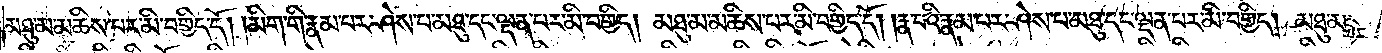མཐུ་མ་མཆིས་པར་མི་བགྱིད་དོ། །མིག་གི་རྣམ་པར་ཤེས་པ་མཐུ་དང་ལྡན་པར་མི་བགྱིད། མཐུ་མ་མཆིས་པར་མི་བགྱིད་དོ། །རྣ་བའི་རྣམ་པར་ཤེས་པ་མཐུ་དང་ལྡན་པར་མི་བགྱིད། མཐུ་མ་
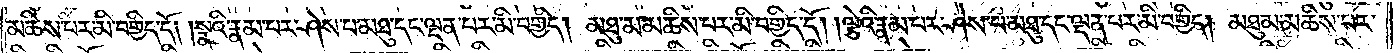མཆིས་པར་མི་བགྱིད་དོ། །སྣའི་རྣམ་པར་ཤེས་པ་མཐུ་དང་ལྡན་པར་མི་བགྱིད། མཐུ་མ་མཆིས་པར་མི་བགྱིད་དོ། །ལྕེའི་རྣམ་པར་ཤེས་པ་མཐུ་དང་ལྡན་པར་མི་བགྱིད། མཐུ་མ་མཆིས་པར་
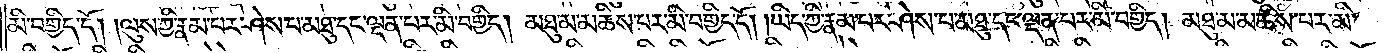མི་བགྱིད་དོ། །ལུས་ཀྱི་རྣམ་པར་ཤེས་པ་མཐུ་དང་ལྡན་པར་མི་བགྱིད། མཐུ་མ་མཆིས་པར་མི་བགྱིད་དོ། །ཡིད་ཀྱི་རྣམ་པར་ཤེས་པ་མཐུ་དང་ལྡན་པར་མི་བགྱིད། མཐུ་མ་མཆིས་པར་མི་
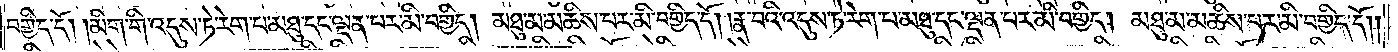བགྱིད་དོ། །མིག་གི་འདུས་ཏེ་རེག་པ་མཐུ་དང་ལྡན་པར་མི་བགྱིད། མཐུ་མ་མཆིས་པར་མི་བགྱིད་དོ། །རྣ་བའི་འདུས་ཏེ་རེག་པ་མཐུ་དང་ལྡན་པར་མི་བགྱིད། མཐུ་མ་མཆིས་པར་མི་བགྱིད་དོ། །
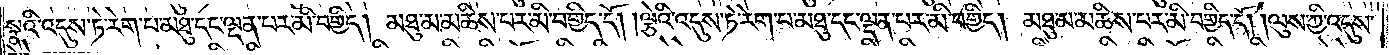སྣའི་འདུས་ཏེ་རེག་པ་མཐུ་དང་ལྡན་པར་མི་བགྱིད། མཐུ་མ་མཆིས་པར་མི་བགྱིད་དོ། །ལྕེའི་འདུས་ཏེ་རེག་པ་མཐུ་དང་ལྡན་པར་མི་བགྱིད། མཐུ་མ་མཆིས་པར་མི་བགྱིད་དོ། །ལུས་ཀྱི་འདུས་
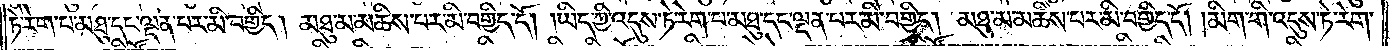ཏེ་རེག་པ་མཐུ་དང་ལྡན་པར་མི་བགྱིད། མཐུ་མ་མཆིས་པར་མི་བགྱིད་དོ། །ཡིད་ཀྱི་འདུས་ཏེ་རེག་པ་མཐུ་དང་ལྡན་པར་མི་བགྱིད། མཐུ་མ་མཆིས་པར་མི་བགྱིད་དོ། །མིག་གི་འདུས་ཏེ་རེག་
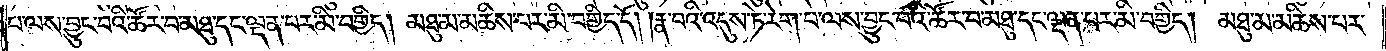པ་ལས་བྱུང་བའི་ཚོར་བ་མཐུ་དང་ལྡན་པར་མི་བགྱིད། མཐུ་མ་མཆིས་པར་མི་བགྱིད་དོ། །རྣ་བའི་འདུས་ཏེ་རེག་པ་ལས་བྱུང་བའི་ཚོར་བ་མཐུ་དང་ལྡན་པར་མི་བགྱིད། མཐུ་མ་མཆིས་པར་
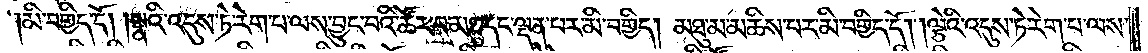མི་བགྱིད་དོ། །སྣའི་འདུས་ཏེ་རེག་པ་ལས་བྱུང་བའི་ཚོར་བ་མཐུ་དང་ལྡན་པར་མི་བགྱིད། མཐུ་མ་མཆིས་པར་མི་བགྱིད་དོ། །ལྕེའི་འདུས་ཏེ་རེག་པ་ལས་
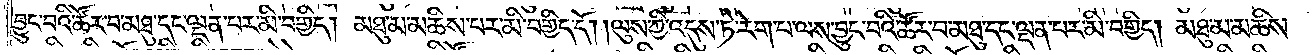བྱུང་བའི་ཚོར་བ་མཐུ་དང་ལྡན་པར་མི་བགྱིད། མཐུ་མ་མཆིས་པར་མི་བགྱིད་དོ། །ལུས་ཀྱི་འདུས་ཏེ་རེག་པ་ལས་བྱུང་བའི་ཚོར་བ་མཐུ་དང་ལྡན་པར་མི་བགྱིད། མཐུ་མ་མཆིས་
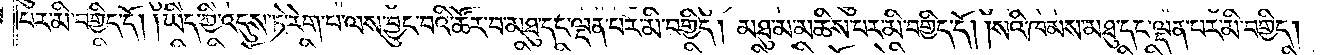པར་མི་བགྱིད་དོ། །ཡིད་ཀྱི་འདུས་ཏེ་རེག་པ་ལས་བྱུང་བའི་ཚོར་བ་མཐུ་དང་ལྡན་པར་མི་བགྱིད། མཐུ་མ་མཆིས་པར་མི་བགྱིད་དོ། །སའི་ཁམས་མཐུ་དང་ལྡན་པར་མི་བགྱིད།
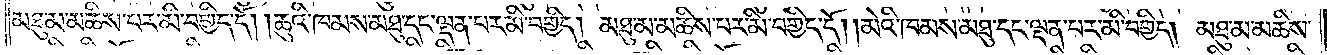མཐུ་མ་མཆིས་པར་མི་བགྱིད་དོ། །ཆུའི་ཁམས་མཐུ་དང་ལྡན་པར་མི་བགྱིད། མཐུ་མ་མཆིས་པར་མི་བགྱིད་དོ། །མེའི་ཁམས་མཐུ་དང་ལྡན་པར་མི་བགྱིད། མཐུ་མ་མཆིས་
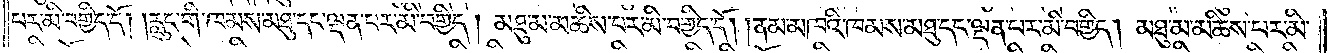པར་མི་བགྱིད་དོ། །རླུང་གི་ཁམས་མཐུ་དང་ལྡན་པར་མི་བགྱིད། མཐུ་མ་མཆིས་པར་མི་བགྱིད་དོ། །ནམ་མཁའི་ཁམས་མཐུ་དང་ལྡན་པར་མི་བགྱིད། མཐུ་མ་མཆིས་པར་མི་
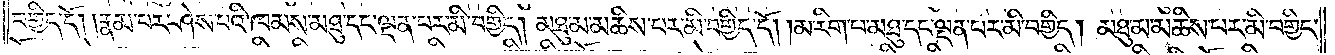བགྱིད་དོ། །རྣམ་པར་ཤེས་པའི་ཁམས་མཐུ་དང་ལྡན་པར་མི་བགྱིད། མཐུ་མ་མཆིས་པར་མི་བགྱིད་དོ། །མ་རིག་པ་མཐུ་དང་ལྡན་པར་མི་བགྱིད། མཐུ་མ་མཆིས་པར་མི་བགྱིད་
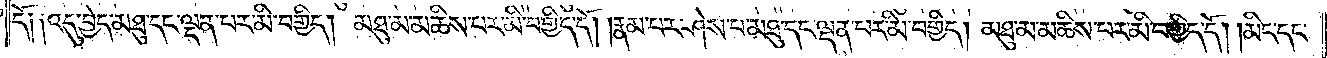དོ༑ ༑འདུ་བྱེད་མཐུ་དང་ལྡན་པར་མི་བགྱིད། མཐུ་མ་མཆིས་པར་མི་བགྱིད་དོ། །རྣམ་པར་ཤེས་པ་མཐུ་དང་ལྡན་པར་མི་བགྱིད། མཐུ་མ་མཆིས་པར་མི་བགྱིད་དོ། །མིང་དང་
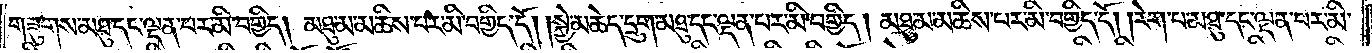གཟུགས་མཐུ་དང་ལྡན་པར་མི་བགྱིད། མཐུ་མ་མཆིས་པར་མི་བགྱིད་དོ། །སྐྱེ་མཆེད་དྲུག་མཐུ་དང་ལྡན་པར་མི་བགྱིད། མཐུ་མ་མཆིས་པར་མི་བགྱིད་དོ། །རེག་པ་མཐུ་དང་ལྡན་པར་མི་
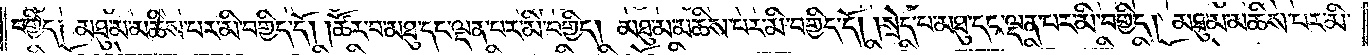བགྱིད། མཐུ་མ་མཆིས་པར་མི་བགྱིད་དོ། །ཚོར་བ་མཐུ་དང་ལྡན་པར་མི་བགྱིད། མཐུ་མ་མཆིས་པར་མི་བགྱིད་དོ། སྲེད་པ་མཐུ་དང་ལྡན་པར་མི་བགྱིད། མཐུ་མ་མཆིས་པར་མི་
